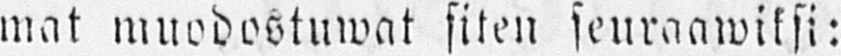mat muodostuwat siten seuraawiksi:
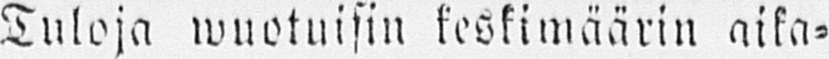Tuloja wuotuisin keskimäärin aika-
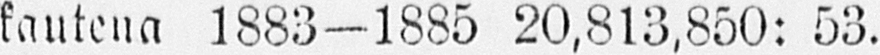kautena 1883-1885 20,813,850: 53.
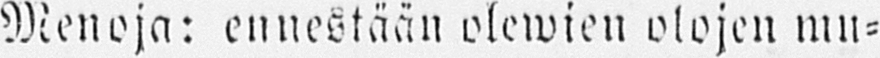Menoja: ennestään olewien olojen mu-
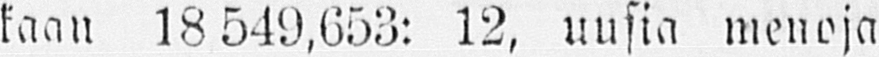kaan 18 549,653: 12, uusia menoja
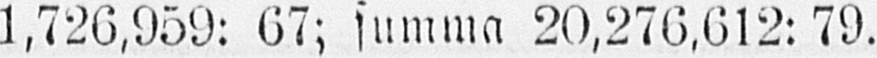1,726,959: 67; summa 20,276,612:79.
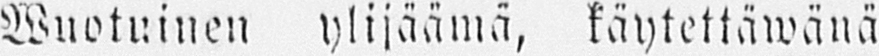Wuotuinen ylijäämä, käytettäwänä
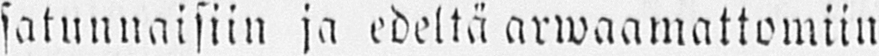satunnaisiin ja edeltä arwaamattomiin
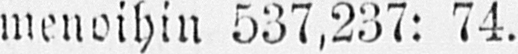menoihin 537,237: 74.
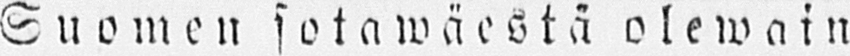Suomen sota wäestä olewain
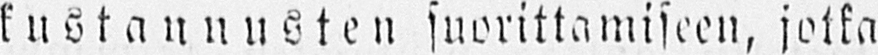kustaunusten suorittamiseen, jotka
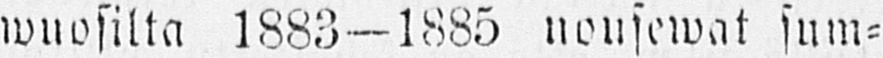wuosilta 1883—1885 nousewat sum-
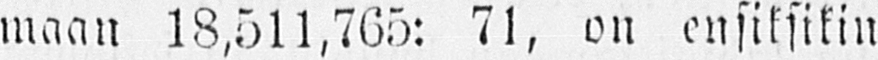maan 18,511,765: 71, on ensiksikin
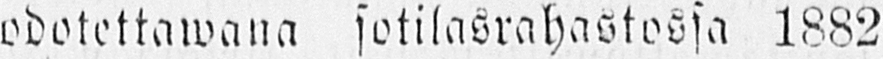odotettawana sotilasrahastossa 1882
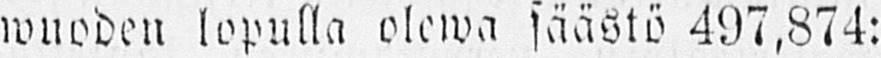wuoden lopulla olewa säästö 497,874:
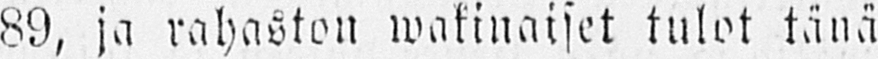80, ja rahaston wakinaiset tulot tänä
